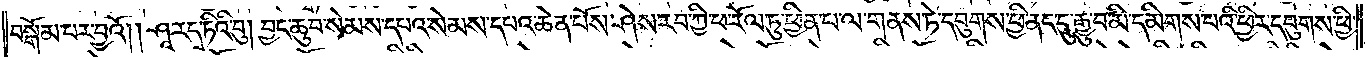བསྒོམ་པར་བྱའོ། །ཤཱ་ར་དྭ་ཏིའི་བུ། བྱང་ཆུབ་སེམས་དཔའ་སེམས་དཔའ་ཆེན་པོས་ཤེས་རབ་ཀྱི་ཕ་རོལ་ཏུ་ཕྱིན་པ་ལ་གནས་ཏེ་དབུགས་ཕྱི་ནང་དུ་རྒྱུ་བ་མི་དམིགས་པའི་ཕྱིར་དབུགས་ཕྱི་
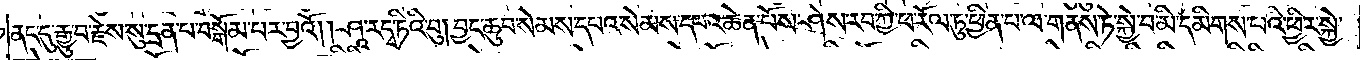ནང་དུ་རྒྱུ་བ་རྗེས་སུ་དྲན་པ་བསྒོམ་པར་བྱའོ། །ཤཱ་ར་དྭ་ཏིའི་བུ། བྱང་ཆུབ་སེམས་དཔའ་སེམས་དཔའ་ཆེན་པོས་ཤེས་རབ་ཀྱི་ཕ་རོལ་ཏུ་ཕྱིན་པ་ལ་གནས་ཏེ་སྐྱེ་བ་མི་དམིགས་པའི་ཕྱིར་སྐྱེ་
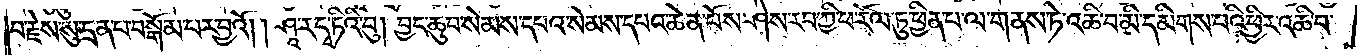བ་རྗེས་སུ་དྲན་པ་བསྒོམ་པར་བྱའོ། །ཤཱ་ར་དྭ་ཏིའི་བུ། བྱང་ཆུབ་སེམས་དཔའ་སེམས་དཔའ་ཆེན་པོས་ཤེས་རབ་ཀྱི་ཕ་རོལ་ཏུ་ཕྱིན་པ་ལ་གནས་ཏེ་འཆི་བ་མི་དམིགས་པའི་ཕྱིར་འཆི་བ་
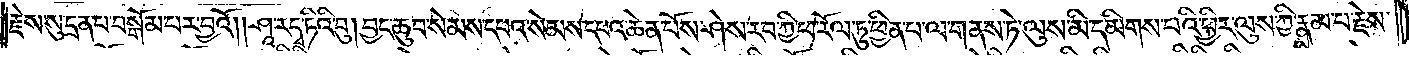རྗེས་སུ་དྲན་པ་བསྒོམ་པར་བྱའོ། །ཤཱ་ར་དྭ་ཏིའི་བུ། བྱང་ཆུབ་སེམས་དཔའ་སེམས་དཔའ་ཆེན་པོས་ཤེས་རབ་ཀྱི་ཕ་རོལ་ཏུ་ཕྱིན་པ་ལ་གནས་ཏེ་ལུས་མི་དམིགས་པའི་ཕྱིར་ལུས་ཀྱི་རྣམ་པ་རྗེས་
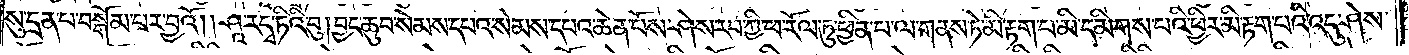སུ་དྲན་པ་བསྒོམ་པར་བྱའོ། །ཤཱ་ར་དྭ་ཏིའི་བུ། བྱང་ཆུབ་སེམས་དཔའ་སེམས་དཔའ་ཆེན་པོས་ཤེས་རབ་ཀྱི་ཕ་རོལ་ཏུ་ཕྱིན་པ་ལ་གནས་ཏེ་མི་རྟག་པ་མི་དམིགས་པའི་ཕྱིར་མི་རྟག་པའི་འདུ་ཤེས་
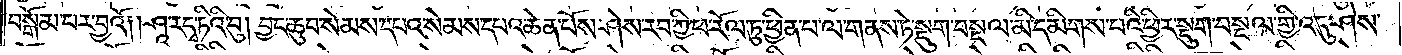བསྒོམ་པར་བྱའོ། །ཤཱ་ར་དྭ་ཏིའི་བུ། བྱང་ཆུབ་སེམས་དཔའ་སེམས་དཔའ་ཆེན་པོས་ཤེས་རབ་ཀྱི་ཕ་རོལ་ཏུ་ཕྱིན་པ་ལ་གནས་ཏེ་སྡུག་བསྔལ་མི་དམིགས་པའི་ཕྱིར་སྡུག་བསྔལ་གྱི་འདུ་ཤེས་
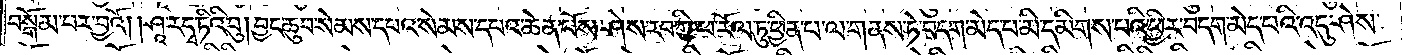བསྒོམ་པར་བྱའོ། །ཤཱ་ར་དྭ་ཏིའི་བུ། བྱང་ཆུབ་སེམས་དཔའ་སེམས་དཔའ་ཆེན་པོས་ཤེས་རབ་ཀྱི་ཕ་རོལ་ཏུ་ཕྱིན་པ་ལ་གནས་ཏེ་བདག་མེད་པ་མི་དམིགས་པའི་ཕྱིར་བདག་མེད་པའི་འདུ་ཤེས་
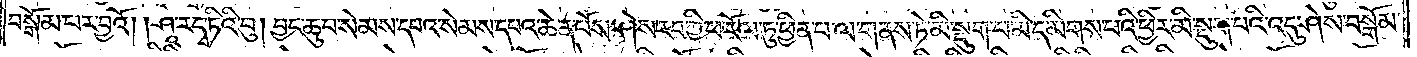བསྒོམ་པར་བྱའོ། །ཤཱ་ར་དྭ་ཏིའི་བུ། བྱང་ཆུབ་སེམས་དཔའ་སེམས་དཔའ་ཆེན་པོས་ཤེས་རབ་ཀྱི་ཕ་རོལ་ཏུ་ཕྱིན་པ་ལ་གནས་ཏེ་མི་སྡུག་པ་མི་དམིགས་པའི་ཕྱིར་མི་སྡུག་པའི་འདུ་ཤེས་བསྒོམ་
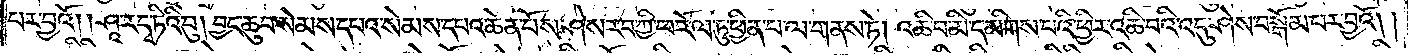པར་བྱའོ། །ཤཱ་ར་དྭ་ཏིའི་བུ། བྱང་ཆུབ་སེམས་དཔའ་སེམས་དཔའ་ཆེན་པོས་ཤེས་རབ་ཀྱི་ཕ་རོལ་ཏུ་ཕྱིན་པ་ལ་གནས་ཏེ། འཆི་བ་མི་དམིགས་པའི་ཕྱིར་འཆི་བའི་འདུ་ཤེས་བསྒོམ་པར་བྱའོ༎
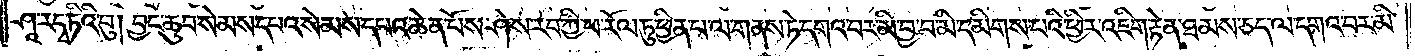ཤཱ་ར་དྭ་ཏིའི་བུ། བྱང་ཆུབ་སེམས་དཔའ་སེམས་དཔའ་ཆེན་པོས་ཤེས་རབ་ཀྱི་ཕ་རོལ་ཏུ་ཕྱིན་པ་ལ་གནས་ཏེ་དགའ་བར་མི་བྱ་བ་མི་དམིགས་པའི་ཕྱིར་འཇིག་རྟེན་ཐམས་ཅད་ལ་དགའ་བར་མི་
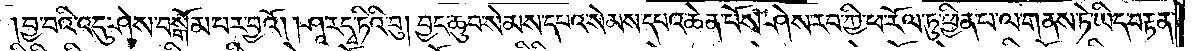བྱ་བའི་འདུ་ཤེས་བསྒོམ་པར་བྱའོ། །ཤཱ་ར་དྭ་ཏིའི་བུ། བྱང་ཆུབ་སེམས་དཔའ་སེམས་དཔའ་ཆེན་པོས་ཤེས་རབ་ཀྱི་ཕ་རོལ་ཏུ་ཕྱིན་པ་ལ་གནས་ཏེ་ཡིད་བརྟན་
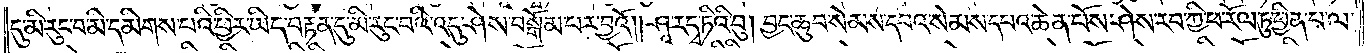དུ་མི་རུང་བ་མི་དམིགས་པའི་ཕྱིར་ཡིད་བརྟན་དུ་མི་རུང་བའི་འདུ་ཤེས་བསྒོམ་པར་བྱའོ། །ཤཱ་ར་དྭ་ཏིའི་བུ། བྱང་ཆུབ་སེམས་དཔའ་སེམས་དཔའ་ཆེན་པོས་ཤེས་རབ་ཀྱི་ཕ་རོལ་ཏུ་ཕྱིན་པ་ལ་
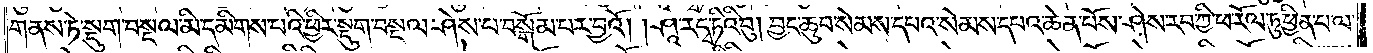གནས་ཏེ་སྡུག་བསྔལ་མི་དམིགས་པའི་ཕྱིར་སྡུག་བསྔལ་ཤེས་པ་བསྒོམ་པར་བྱའོ། །ཤཱ་ར་དྭ་ཏིའི་བུ། བྱང་ཆུབ་སེམས་དཔའ་སེམས་དཔའ་ཆེན་པོས་ཤེས་རབ་ཀྱི་ཕ་རོལ་ཏུ་ཕྱིན་པ་ལ་
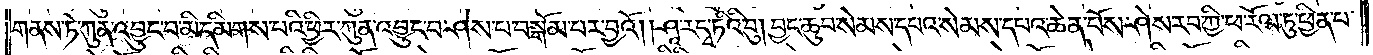གནས་ཏེ་ཀུན་འབྱུང་བ་མི་དམིགས་པའི་ཕྱིར་ཀུན་འབྱུང་བ་ཤེས་པ་བསྒོམ་པར་བྱའོ། །ཤཱ་ར་དྭ་ཏིའི་བུ། བྱང་ཆུབ་སེམས་དཔའ་སེམས་དཔའ་ཆེན་པོས་ཤེས་རབ་ཀྱི་ཕ་རོལ་ཏུ་ཕྱིན་པ་
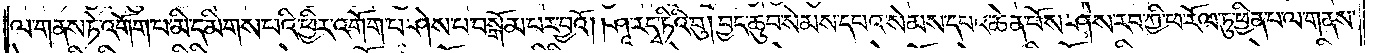ལ་གནས་ཏེ་འགོག་པ་མི་དམིགས་པའི་ཕྱིར་འགོག་པ་ཤེས་པ་བསྒོམ་པར་བྱའོ། །ཤཱ་ར་དྭ་ཏིའི་བུ། བྱང་ཆུབ་སེམས་དཔའ་སེམས་དཔའ་ཆེན་པོས་ཤེས་རབ་ཀྱི་ཕ་རོལ་ཏུ་ཕྱིན་པ་ལ་གནས་
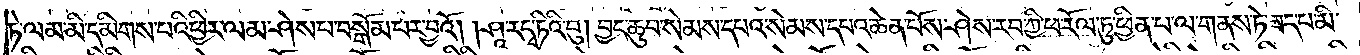ཏེ་ལམ་མི་དམིགས་པའི་ཕྱིར་ལམ་ཤེས་པ་བསྒོམ་པར་བྱའོ། །ཤཱ་ར་དྭ་ཏིའི་བུ། བྱང་ཆུབ་སེམས་དཔའ་སེམས་དཔའ་ཆེན་པོས་ཤེས་རབ་ཀྱི་ཕ་རོལ་ཏུ་ཕྱིན་པ་ལ་གནས་ཏེ་ཟད་པ་མི་
